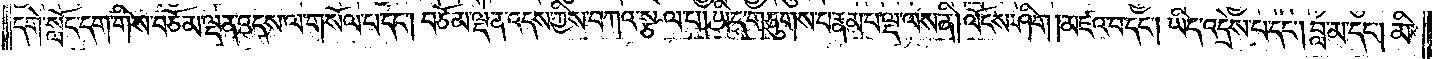དགེ་སློང་དག་གིས་བཅོམ་ལྡན་འདས་ལ་གསོལ་པ་དང༌། བཅོམ་ལྡན་འདས་ཀྱིས་བཀའ་སྩལ་པ། ཡིད་གཅུགས་པ་རྣམ་པ་ལྔ་ལས་ནི། ལོངས་ཤིག །མཛའ་བ་དང༌། ཡིད་འདྲེས་པ་དང༌། བླ་མ་དང༌། མི་
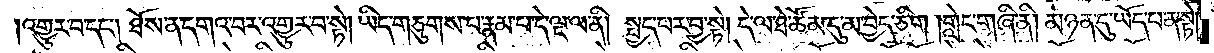འགྱུར་བ་དང༌། ཐོས་ན་དགའ་བར་འགྱུར་པ་སྟེ། ཡིད་གཅུགས་པ་རྣམ་པ་དེ་ལྔ་ལ་ནི། སྤྱད་པར་བྱ་སྟེ། དེ་ལྟ་ཐེ་ཚོམ་དུ་མ་བྱེད་ཅིག །གླེང་གཞི་ནི། མཉན་དུ་ཡོད་པ་ན་སྟེ།
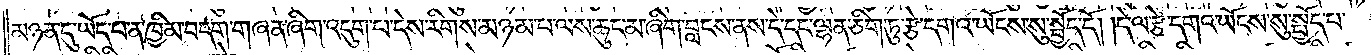མཉན་དུ་ཡོད་པ་ན་ཁྱིམ་བདག་གཞན་ཞིག་འདུག་པ་དེས་རིགས་མཉམ་པ་ལས་ཆུང་མ་ཞིག་བླངས་ནས་དེ་དང་ལྷན་ཅིག་ཏུ་རྩེ་དགའ་ཡོངས་སུ་སྤྱོད་དོ། །དེ་ལ་རྩེ་དགའ་ཡོངས་སུ་སྤྱོད་པ་
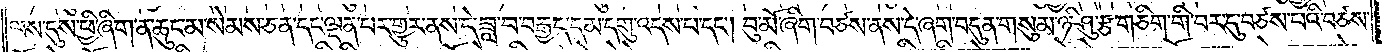ལས་དུས་ཕྱི་ཞིག་ན་ཆུང་མ་སེམས་ཅན་དང་ལྡན་པར་གྱུར་ནས་དེ་ཟླ་བ་བརྒྱད་དམ་དགུ་འདས་པ་དང༌། བུ་མོ་ཞིག་བཙས་ནས་དེ་ཞག་བདུན་གསུམ་ཉི་ཤུ་རྩ་གཅིག་གི་བར་དུ་བཙས་པའི་བཙས་
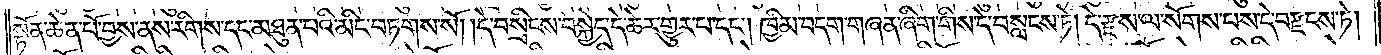སྟོན་ཆེན་པོ་བྱས་ནས་རིགས་དང་མཐུན་པའི་མིང་བཏགས་སོ། །དེ་བསྲིངས་བསྐྱེད་དེ་ཆེར་གྱུར་པ་དང༌། ཁྱིམ་བདག་གཞན་ཞིག་གིས་དེ་བསླངས་ཏེ། དེ་རྫས་ལ་སོགས་པས་དེ་བརྫངས་ཏེ།
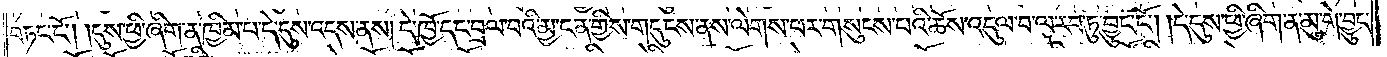བཏང་ངོ༌། །དུས་ཕྱི་ཞིག་ན་ཁྱིམ་པ་དེ་དུས་འདས་ནས། དེ་ཁྱོ་དང་བྲལ་བའི་མྱ་ངན་གྱིས་གདུངས་ནས་ལེགས་པར་གསུངས་པའི་ཆོས་འདུལ་བ་ལ་རབ་ཏུ་བྱུང་ངོ༌། །དེ་དུས་ཕྱི་ཞིག་ན་མུ་གེ་བྱུང་
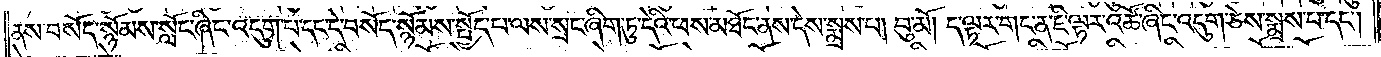ནས་བསོད་སྙོམས་སློང་ཞིང་འདུག་པ་དང་དེ་བསོད་སྙོམས་སྤྱོད་པ་ལས་སྲང་ཞིག་ཏུ་དེའི་ཕས་མཐོང་ནས་དེས་སྨྲས་པ། བུ་མོ། ད་ལྟར་གང་ན་ཇི་ལྟར་འཚོ་ཞིང་འདུག་ཅེས་སྨྲས་པ་དང༌།
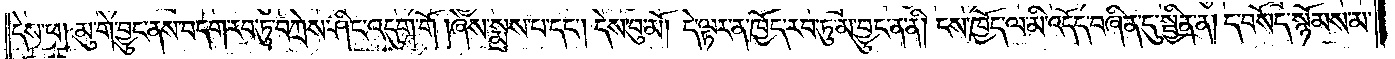དེས་ཕ། མུ་གེ་བྱུང་ནས་བདག་རབ་ཏུ་བཀྲེས་ཤིང་འདུག་གོ །ཞེས་སྨྲས་པ་དང༌། དེས་བུ་མོ། དེ་ལྟར་ན་ཁྱོད་རབ་ཏུ་མ་བྱུང་ན་ནི། ངས་ཁྱོད་ལ་མི་འདོད་བཞིན་དུ་སྦྱིན་ན། ད་བསོད་སྙོམས་མ་
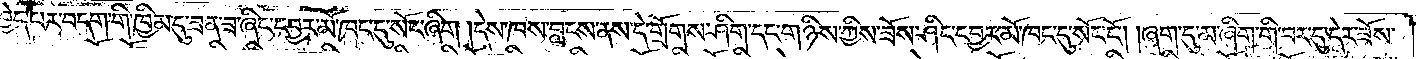བྱེད་པར་བདག་གི་ཁྱིམ་དུ་ཟན་ཟ་ཞིང་དབྱར་མོ་ཁང་དུ་སོང་ཞིག །དེས་ཁས་བླངས་ནས་དེ་གྲོགས་ཤིག་དང་གཉིས་ཀྱིས་ཟོས་ཤིང་དབྱར་མོ་ཁང་དུ་སོང་ངོ༌། །ཞག་དུ་མ་ཞིག་གི་བར་དུ་དེར་ཟོས་
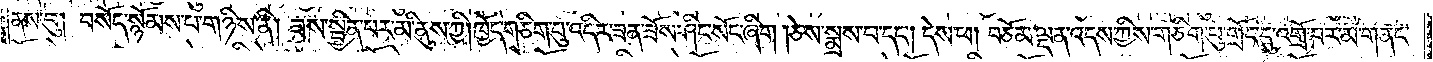ནས་བུ། བསོད་སྙོམས་པ་གཉིས་ནི། ཟས་སྦྱིན་པར་མི་ནུས་ཀྱི། ཁྱོད་གཅིག་པུ་འདིར་ཟན་ཟོས་ཤིང་སོང་ཞིག །ཅེས་སྨྲས་པ་དང༌། དེས་ཕ། བཅོམ་ལྡན་འདས་ཀྱིས་གཅིག་པུ་གྲོང་དུ་འགྲོ་བར་མ་གནང་
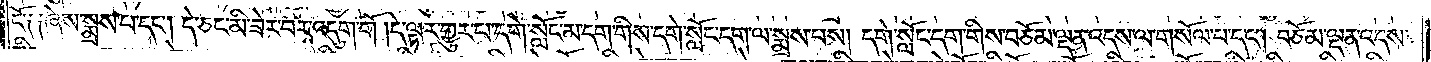ངོ༑ ༑ཞེས་སྨྲས་པ་དང༌། དེ་ཅང་མི་ཟེར་བར་འདུག་གོ །དེ་ལྟར་གྱུར་པ་དགེ་སློང་མ་དག་གིས་དགེ་སློང་དག་ལ་སྨྲས་པས། དགེ་སློང་དག་གིས་བཅོམ་ལྡན་འདས་ལ་གསོལ་པ་དང༌། བཅོམ་ལྡན་འདས་
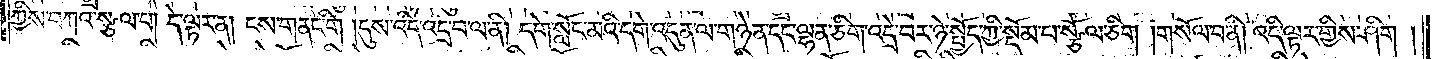ཀྱིས་བཀའ་སྩལ་པ། དེ་ལྟར་ན། ངས་གནང་གི །དུས་འདི་འདྲ་བ་ལ་ནི། དགེ་སློང་མའི་དགེ་འདུན་ལ་གཉེན་དང་ལྷན་ཅིག་འདྲེ་བར་ཉེ་སྤྱོད་ཀྱི་སྡོམ་པ་སྩོལ་ཅིག །གསོལ་བ་ནི། འདི་ལྟར་གྱིས་ཤིག །
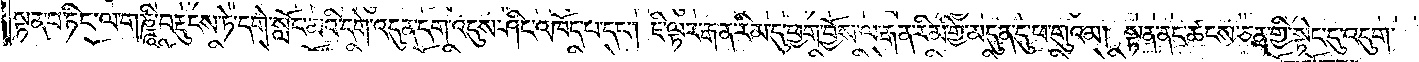སྟན་བཏིང་ལ་གཎྜཱི་བརྡུངས་ཏེ་དགེ་སློང་མའི་དགེ་འདུན་དག་འདུས་ཤིང་འཁོད་པ་དང༌། ཇི་ལྟར་རྒན་རིམ་དུ་ཕྱག་བྱོས་ལ་རྒན་རིམ་གྱི་མདུན་དུ་ཕ་གུའམ། སྟན་ནང་ཚངས་ཅན་གྱི་སྟེང་དུ་འདུག་
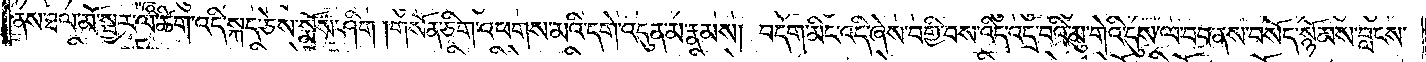ནས་ཐལ་མོ་སྦྱར་ལ་ཚིག་འདི་སྐད་ཅེས་སྨྲོས་ཤིག །གསོན་ཅིག་འཕགས་མའི་དགེ་འདུན་མ་རྣམས། བདག་མིང་འདི་ཞེས་བགྱི་བས་འདི་འདྲ་བའི་མུ་གེའི་དུས་ལ་བབ་ནས་བསོད་སྙོམས་བླངས་
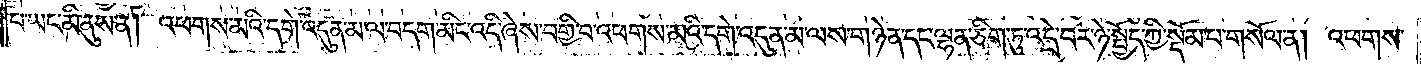བ་ཡང་མི་ནུས་ན། འཕགས་མའི་དགེ་འདུན་མ་ལ་བདག་མིང་འདི་ཞེས་བགྱི་བ་འཕགས་མའི་དགེ་འདུན་མ་ལས་གཉེན་དང་ལྷན་ཅིག་ཏུ་འདྲེ་བར་ཉེ་སྤྱོད་ཀྱི་སྡོམ་པ་གསོལ་ན། འཕགས་
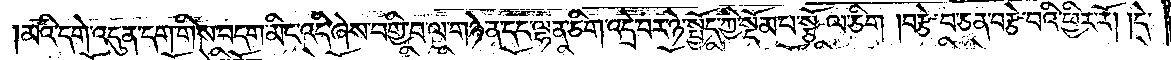མའི་དགེ་འདུན་དག་གིས་བདག་མིང་འདི་ཞེས་བགྱི་བ་ལ་གཉེན་དང་ལྷན་ཅིག་འདྲེ་བར་ཉེ་སྤྱོད་ཀྱི་སྡོམ་པ་སྩོལ་ཅིག །བརྩེ་བ་ཅན་བརྩེ་བའི་ཕྱིར་རོ། །དེ་
